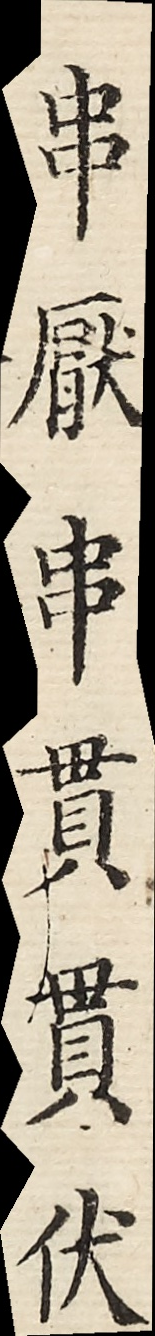串厭串貫買伏
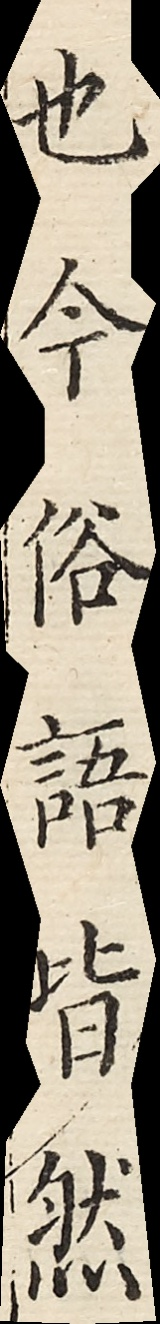也今俗語皆然
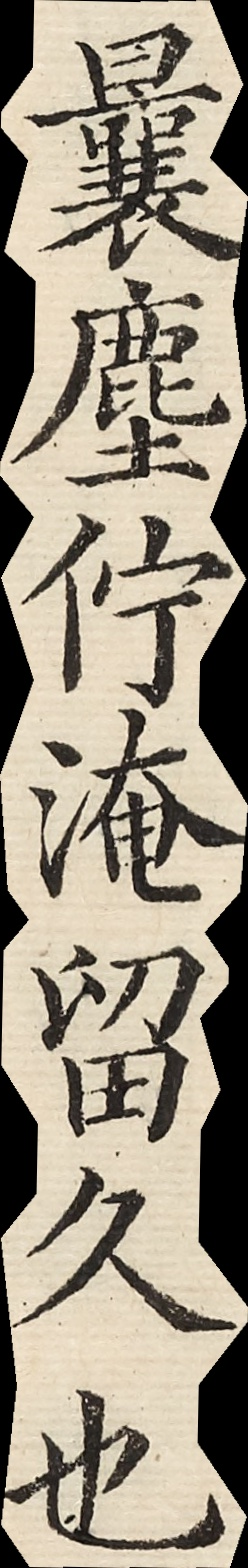曩塵佇淹留久也
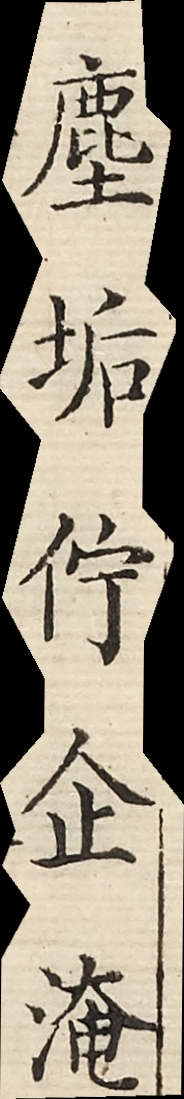塵垢佇企淹
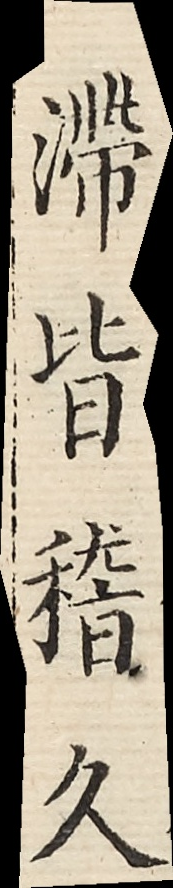滯皆稽久
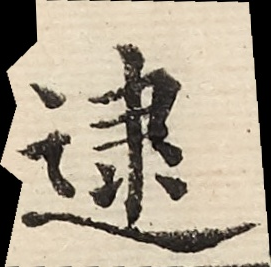逮
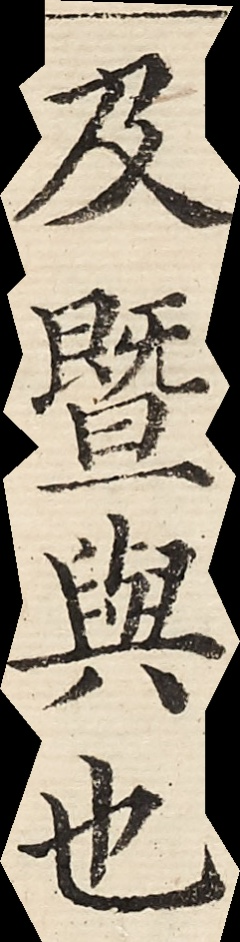及暨與也
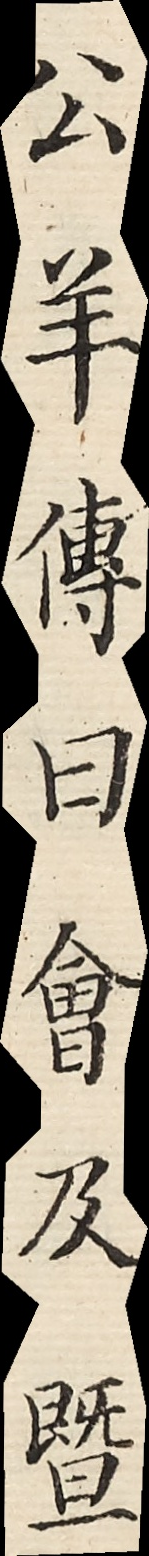公羊傳曰會及暨
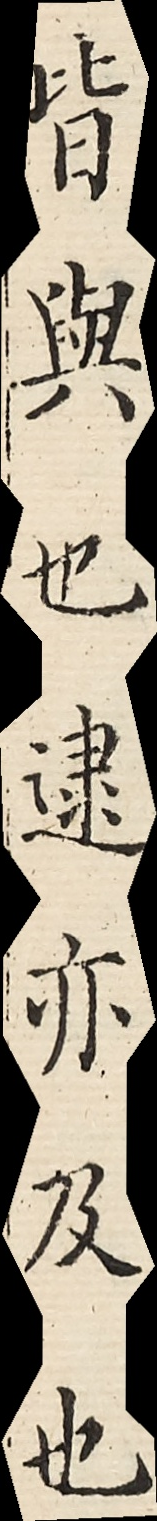皆與也逮亦及也
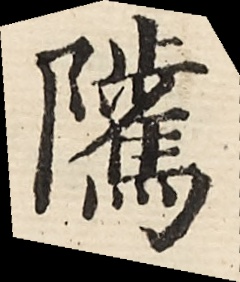騭
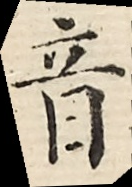音
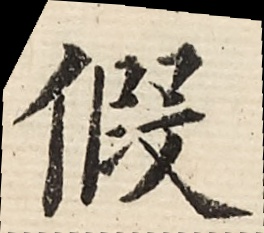假
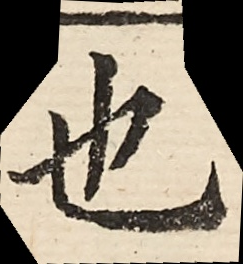也
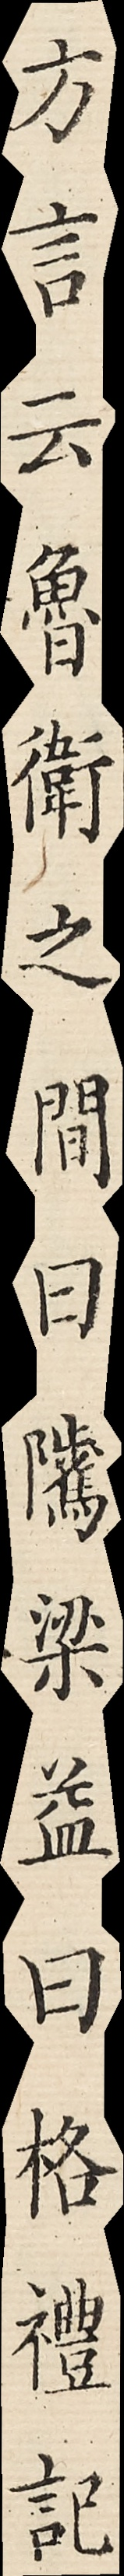方言云魯衛之間曰騭梁益曰格禮記
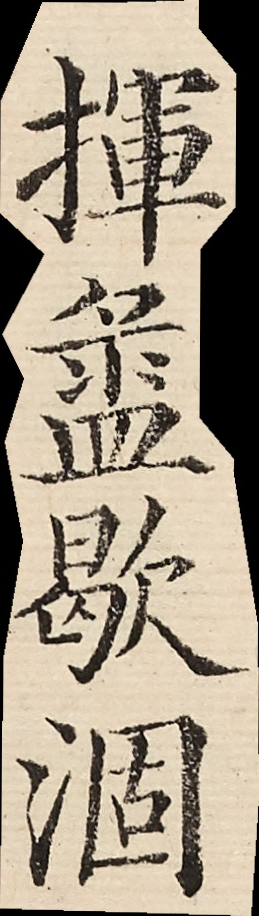揮盝歇涸
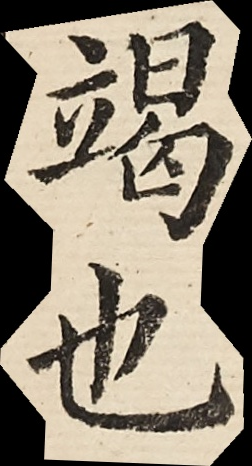竭也
